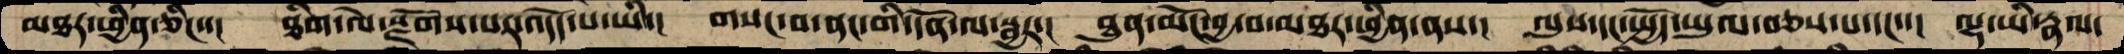མཐར་ཕྱིན་ཅིང་་།  ཐིག་ལེ་སྫོགས་པར་འདོད་པ་ཡི་།  གསང་བ་ནང་གི་དོན་ལ་སྦྱར་།  ཐུན་མོང་བྱ་བ་མཐར་ཕྱིན་ནས་།  ལུས་དང་སྤྱོད་ཡུལ་བཅས་པ་དང་་།  ལྷ་ཡི་རྣལ་
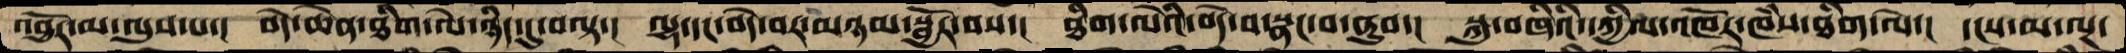འབྱོར་མ་ལུས་པ་།  བདེ་ཆེན་ཐིག་ལེ་ཉིད་དུ་བལྟ་།  ལྷ་དང་བདེ་བར་མཉམ་སྦྱོར་བས་།  ཐིག་ལེའི་བདེ་བ་སྣང་བ་ནུབ་།  སྐུ་བཞིའི་དཀྱིལ་འཁོར་ཁཾས་ཐིག་ལེ་།  དངས་མ་ལྔ་
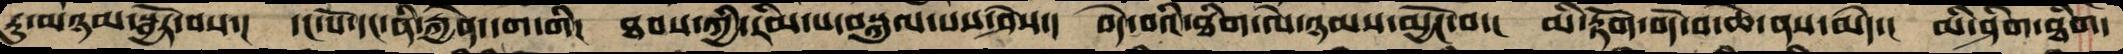རུ་མཉམ་སྦྱོར་བས་།  དང་པོ་དང་ནི་རྐྱེན་དག་གི་།  ཐབས་ཀྱི་རིམ་པ་བསྐུལ་པས་ཤེས་།  བདེ་བའི་ཐིག་ལེ་ཉམས་མྱོང་བ་།  མི་རྟོག་བདེ་བ་ཆེ་ནས་མེད་།  མི་ཤིག་ཐིག་
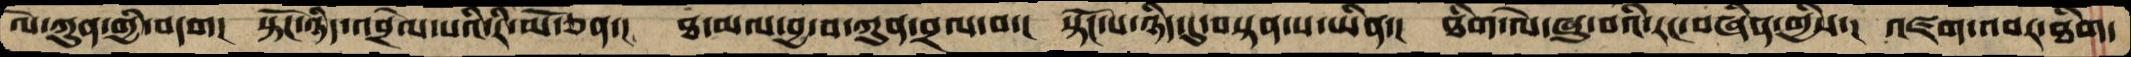ལེ་ཀུན་གྱི་བདག།  སྟོང་ཉིད་འབྲེལ་པའི་རི་མོ་ཅན་།  ཐ་མལ་བྱ་བ་ཀུན་བྲལ་བ་།  སྟོང་པ་ཉིད་དུ་བསྟན་པ་ཡིན་།  ཐིག་ལེ་ཞུ་བའི་རང་བཞིན་གྱིས་།  འཛག་འབར་ཐིག་
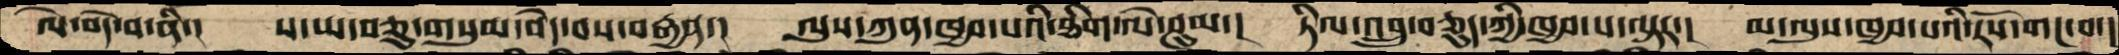ལེ་བདེ་བ་ནི་།  ས་ཡ་བཅུ་གསུམ་བདེ་བས་བརྒྱན་།  ལུས་ཀུན་ཁྱབ་པའི་ཐིག་ལེ་ཤུལ་།  ཏིལ་འབྲུ་བཅུད་ཀྱི་ཁྱབ་པ་ལྟར་།  མ་ལུས་ཁྱབ་པའི་རོས་གང་བ་།
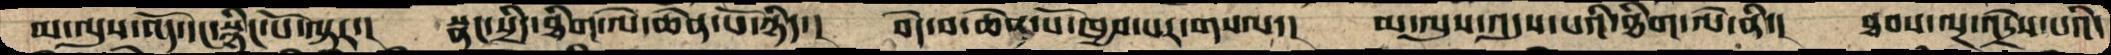མ་ལུས་འོད་དང་སྙིང་པོ་ལྟར་།  སྣང་སྲིད་ཐིག་ལེ་ཆེན་པོ་ཉིད་།  བདེ་བ་ཆེན་པོ་ཁྱབ་པར་གསལ་།  མ་ལུས་འདུས་པའི་ཐིག་ལེ་ནི་།  ཐབས་ལྔ་འདྲེས་པའི་
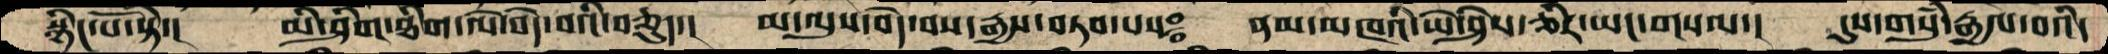སྙིང་པོ་སྟེ་།  མི་ཤིག་ཐིག་ལེ་བདེ་བའི་བཅུད་།  མ་ལུས་བདེ་བས་རྒྱས་བཏབ་པས༔  ནམ་མཁའི་ཡེ་ཤེས་ཅིར་ཡང་གསལ་།  དུས་གསུཾ་རྒྱལ་བའི་
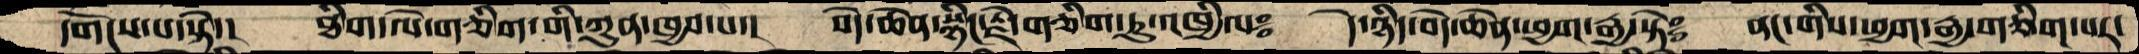དགོངས་པ་སྟེ་།  ཐིག་ལེ་གཅིག་གི་ཀུན་ཁྱབ་པ་།  བདེ་ཆེན་སྙིང་རྗེ་གཅིག་ཏུ་འཁྱིལ་།  དེ་ཉིད་བདེ་ཆེན་ཕྱག་རྒྱ་སྟེ༔  ནང་གིས་ཕྱག་རྒྱ་གཅིག་པར་
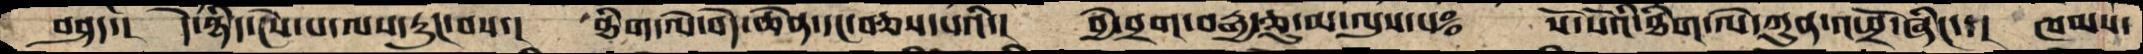བཤད་།  དེ་ཉིད་ངེས་པ་ལས་རུང་བས་།  ཐིག་ལེ་བདེ་ཆེན་དང་བཅས་པའི་།  བྱེ་བྲག་བརྒྱ་ཅུ་མ་ལུས་པ༔  སོ་སོའི་ཐིག་ལེ་ཀུན་འཕྲོ་ཞིང་་།  ཁམས་
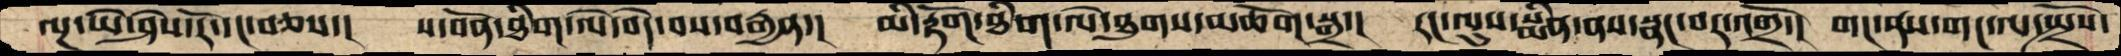ལྔ་ཡེ་ཤེས་རོ་དང་བཅས་།  ས་བོན་ཐིག་ལེ་བདེ་བས་བརྒྱན་།  མི་རྟོག་ཐིག་ལེ་ཐུགས་མཆོག་སྒྲ་། རང་ལུས་སྨིན་ནས་སྣང་བར་འགྲོ་།  གང་ནས་གང་ལ་སྤྲོས་
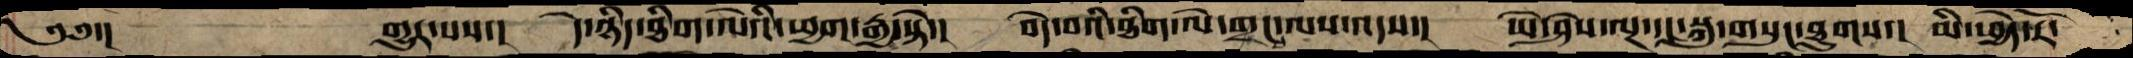༄༅་།           གྱུར་པས་།  དེ་ཉིད་ཐིག་ལེའི་ཕྱག་རྒྱ་སྟེ་། བདེ་བའི་ཐིག་ལེ་གྲང་ལས་འདས་།  ཡེ་ཤེས་ལྔ་དང་སྐུ་གསུང་ཐུགས་།  མི་ཕྱེད་རོ་
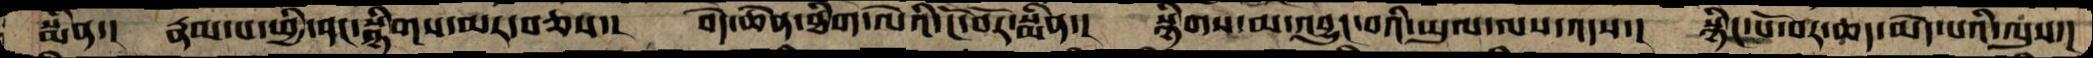སྨིན་།  རྣམ་པ་ཕྱི་ནང་སྙིགས་མར་བཅས་།  བདེ་ཆེན་ཐིག་ལེའི་ངོ་བོར་སྨིན་།  སྙིགས་མ་འབྱུང་བའི་ཡུལ་ལས་འདས་།  སྙིང་པོ་བར་ཆད་མེད་པའི་ལུས་།
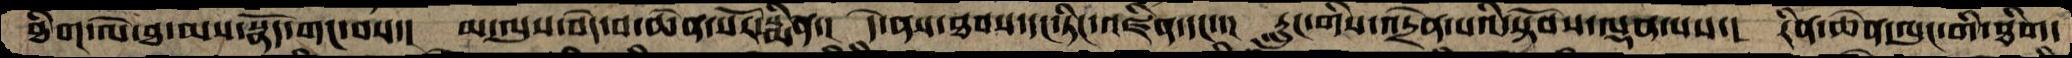ཐིག་ལེ་ཐ་མས་སྣོད་གང་བས་།  མ་ལུས་བདེ་བ་ཆེན་པོར་སྨིན་།  དེ་ནས་ཐབས་དང་ཏིང་འཛིན་དང་་།  རླུང་གིས་འདྲེན་པའི་སྟོབས་ལྡན་པས་།  རིན་ཆེན་ལུང་གི་ཐིག་
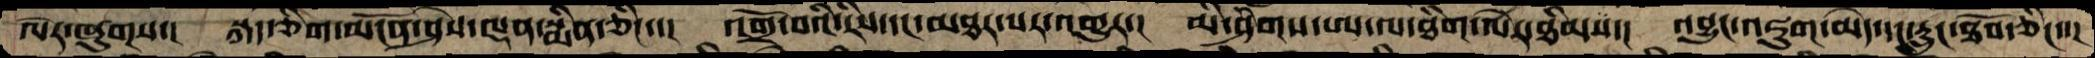ལེར་ཞུགས་།  སྐད་ཅིག་མངོན་ཤེས་ལྡན་སྨིན་ཅིང་་།  འགྲོ་བའི་རིས་དང་མཐར་སར་འགྱུར་།  མི་ཤིགས་ཨ་ལ་ཐིག་ལེར་ཐིམས་།  འབྱུང་འཇུག་མེད་དང་རླུང་ཐོབ་ཅིང་་།
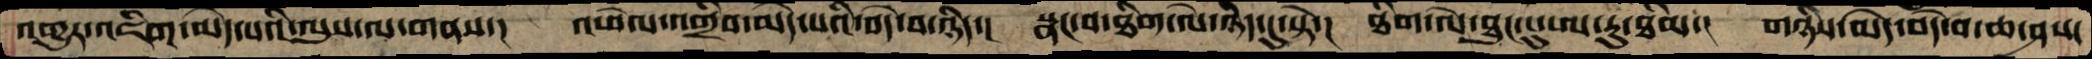འགྱུར་འཇིག་མེད་པའི་ལུས་ལ་གནས་།  འཕེལ་འགྲིབ་མེད་པའི་བདེ་བ་ཉིད་།  སྣང་བ་ཐིག་ལེ་ཉིད་དུ་སྟེ་།  ཐིག་ལེ་ཐུང་ངུ་ཨ་རུ་ཐིམ་།  གཉིས་མེད་བདེ་བ་ཆ་ཤས་
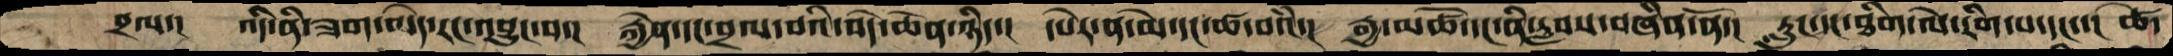བྲལ་།   འདི་ནི་ཟག་མེད་རང་འབྱུང་བ་།  རྐྱེན་དང་བྲལ་བའི་བདེ་ཆེན་ཉིད་།  དཔེར་ན་མེ་དང་ཚ་བའཾ་།  རྒྱ་མཚོ་དང་ནི་རླབས་བཞིན་ནོ་།   རླུང་དང་ཐིག་ལེ་རིག་པ་དང་་།  ཚེ་
